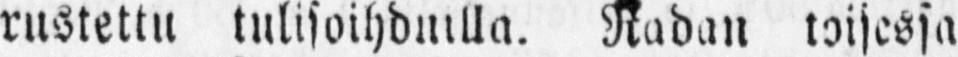rustettu tulisoihduilla. Radan toisessa
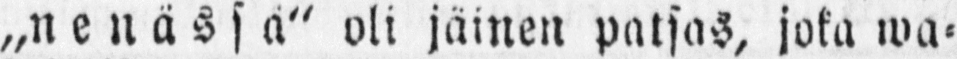„nenässa" oli jäinen patsas, joka wa-
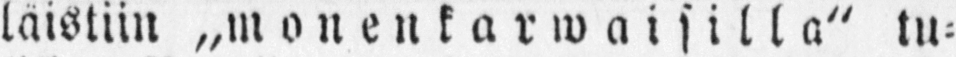läistiin „monenkarwaisilla" tu-
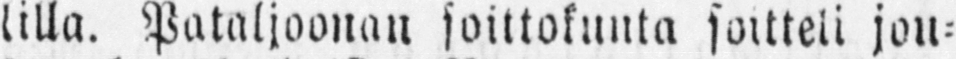lilla. Pataljoonan soittokunta sottteli jou-
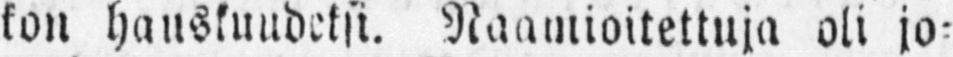kon hauskuudeksi. Naamioitettuja oli jo-
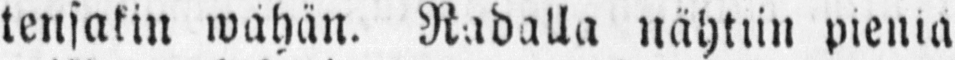tensakin wahän. Radalla nähtiin pieniä
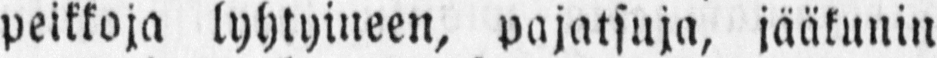peikkoja lyhtyineen, pajatsuja, jääkunin
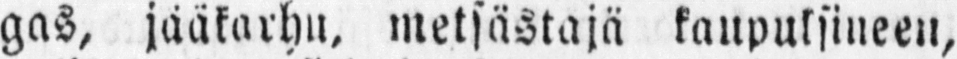gas, jääkarhu, metsästäjä kaupuksineen,
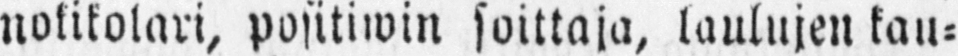nokikolari, positiwin soittaja, taulujen kau-
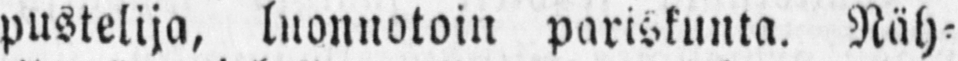pustelija, luonnotoin pariskunta. Näh-
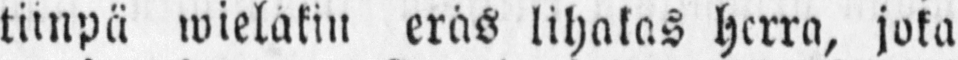tiinpä wieläkin eräs lihakas herra, joka
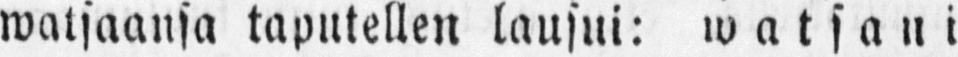watsaansa taputellen lausui: watsani
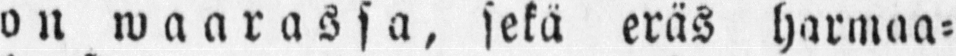on waarassa, sekä eräs harmaa-
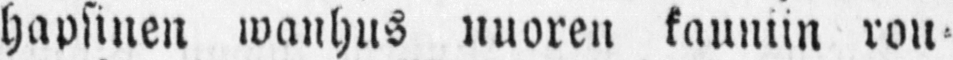hapsinen wanhus nuoren kauniin rou-
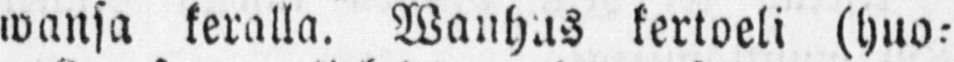wansa keralla. Wanhas kertoeli (huo-
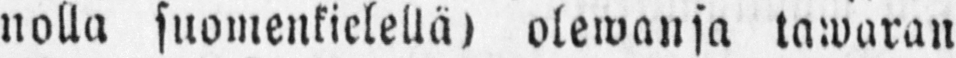nolla suomenkielellä) olewansa tawaran
